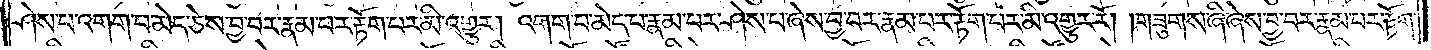ཤེས་པ་འགག་པ་མེད་ཅེས་བྱ་བར་རྣམ་པར་རྟོག་པར་མི་འགྱུར། འགག་པ་མེད་པ་རྣམ་པར་ཤེས་པ་ཞེས་བྱ་བར་རྣམ་པར་རྟོག་པར་མི་འགྱུར་རོ། །གཟུགས་ཞི་ཞེས་བྱ་བར་རྣམ་པར་རྟོག་
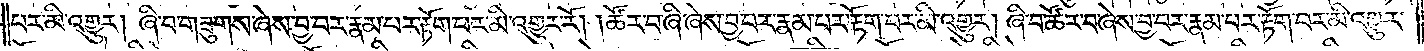པར་མི་འགྱུར། ཞི་བ་གཟུགས་ཞེས་བྱ་བར་རྣམ་པར་རྟོག་པར་མི་འགྱུར་རོ། །ཚོར་བ་ཞི་ཞེས་བྱ་བར་རྣམ་པར་རྟོག་པར་མི་འགྱུར། ཞི་བ་ཚོར་བ་ཞེས་བྱ་བར་རྣམ་པར་རྟོག་པར་མི་འགྱུར་
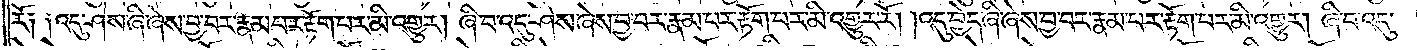རོ༏ ༏འདུ་ཤེས་ཞི་ཞེས་བྱ་བར་རྣམ་པར་རྟོག་པར་མི་འགྱུར། ཞི་བ་འདུ་ཤེས་ཞེས་བྱ་བར་རྣམ་པར་རྟོག་པར་མི་འགྱུར་རོ། །འདུ་བྱེད་ཞི་ཞེས་བྱ་བར་རྣམ་པར་རྟོག་པར་མི་འགྱུར། ཞི་བ་འདུ་
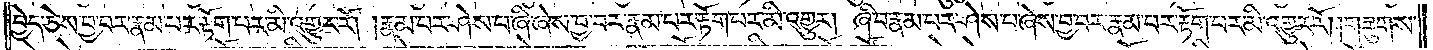བྱེད་ཅེས་བྱ་བར་རྣམ་པར་རྟོག་པར་མི་འགྱུར་རོ། །རྣམ་པར་ཤེས་པ་ཞི་ཞེས་བྱ་བར་རྣམ་པར་རྟོག་པར་མི་འགྱུར། ཞི་བ་རྣམ་པར་ཤེས་པ་ཞེས་བྱ་བར་རྣམ་པར་རྟོག་པར་མི་འགྱུར་རོ། །གཟུགས་
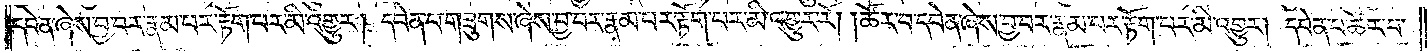དབེན་ཞེས་བྱ་བར་རྣམ་པར་རྟོག་པར་མི་འགྱུར། དབེན་པ་གཟུགས་ཞེས་བྱ་བར་རྣམ་པར་རྟོག་པར་མི་འགྱུར་རོ། །ཚོར་བ་དབེན་ཞེས་བྱ་བར་རྣམ་པར་རྟོག་པར་མི་འགྱུར། དབེན་པ་ཚོར་བ་
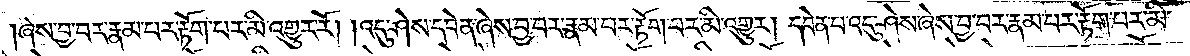ཞེས་བྱ་བར་རྣམ་པར་རྟོག་པར་མི་འགྱུར་རོ། །འདུ་ཤེས་དབེན་ཞེས་བྱ་བར་རྣམ་པར་རྟོག་པར་མི་འགྱུར། དབེན་པ་འདུ་ཤེས་ཞེས་བྱ་བར་རྣམ་པར་རྟོག་པར་མི་
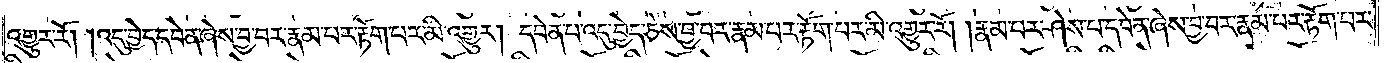འགྱུར་རོ། །འདུ་བྱེད་དབེན་ཞེས་བྱ་བར་རྣམ་པར་རྟོག་པར་མི་འགྱུར། དབེན་པ་འདུ་བྱེད་ཅེས་བྱ་བར་རྣམ་པར་རྟོག་པར་མི་འགྱུར་རོ། །རྣམ་པར་ཤེས་པ་དབེན་ཞེས་བྱ་བར་རྣམ་པར་རྟོག་པར་
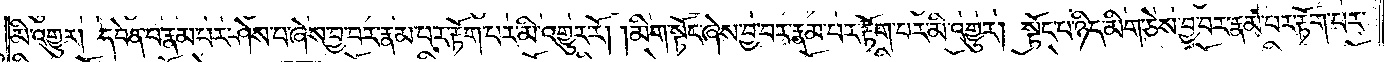མི་འགྱུར། དབེན་པ་རྣམ་པར་ཤེས་པ་ཞེས་བྱ་བར་རྣམ་པར་རྟོག་པར་མི་འགྱུར་རོ། །མིག་སྟོང་ཞེས་བྱ་བར་རྣམ་པར་རྟོག་པར་མི་འགྱུར། སྟོང་པ་ཉིད་མིག་ཅེས་བྱ་བར་རྣམ་པར་རྟོག་པར་
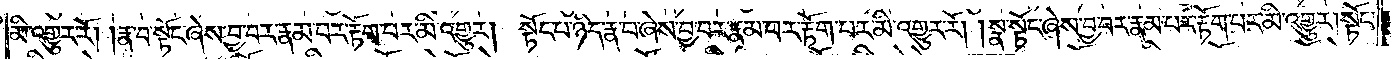མི་འགྱུར་རོ། །རྣ་བ་སྟོང་ཞེས་བྱ་བར་རྣམ་པར་རྟོག་པར་མི་འགྱུར། སྟོང་པ་ཉིད་རྣ་བ་ཞེས་བྱ་བར་རྣམ་པར་རྟོག་པར་མི་འགྱུར་རོ། །སྣ་སྟོང་ཞེས་བྱ་བར་རྣམ་པར་རྟོག་པར་མི་འགྱུར། སྟོང་
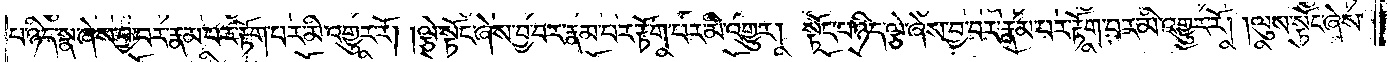པ་ཉིད་སྣ་ཞེས་བྱ་བར་རྣམ་པར་རྟོག་པར་མི་འགྱུར་རོ། །ལྕེ་སྟོང་ཞེས་བྱ་བར་རྣམ་པར་རྟོག་པར་མི་འགྱུར། སྟོང་པ་ཉིད་ལྕེ་ཞེས་བྱ་བར་རྣམ་པར་རྟོག་པར་མི་འགྱུར་རོ། །ལུས་སྟོང་ཞེས་
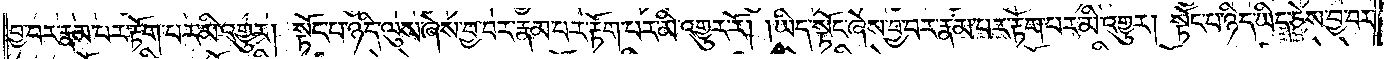བྱ་བར་རྣམ་པར་རྟོག་པར་མི་འགྱུར། སྟོང་པ་ཉིད་ལུས་ཞེས་བྱ་བར་རྣམ་པར་རྟོག་པར་མི་འགྱུར་རོ། །ཡིད་སྟོང་ཞེས་བྱ་བར་རྣམ་པར་རྟོག་པར་མི་འགྱུར། སྟོང་པ་ཉིད་ཡིད་ཅེས་བྱ་བར་
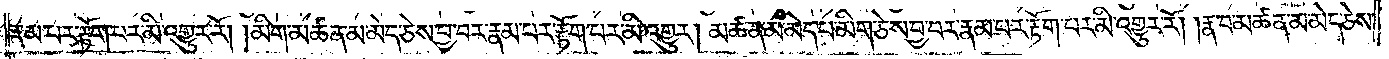རྣམ་པར་རྟོག་པར་མི་འགྱུར་རོ། །མིག་མཚན་མ་མེད་ཅེས་བྱ་བར་རྣམ་པར་རྟོག་པར་མི་འགྱུར། མཚན་མ་མེད་པ་མིག་ཅེས་བྱ་བར་རྣམ་པར་རྟོག་པར་མི་འགྱུར་རོ། །རྣ་བ་མཚན་མ་མེད་ཅེས་
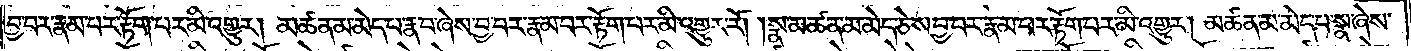བྱ་བར་རྣམ་པར་རྟོག་པར་མི་འགྱུར། མཚན་མ་མེད་པ་རྣ་བ་ཞེས་བྱ་བར་རྣམ་པར་རྟོག་པར་མི་འགྱུར་རོ། །སྣ་མཚན་མ་མེད་ཅེས་བྱ་བར་རྣམ་པར་རྟོག་པར་མི་འགྱུར། མཚན་མ་མེད་པ་སྣ་ཞེས་
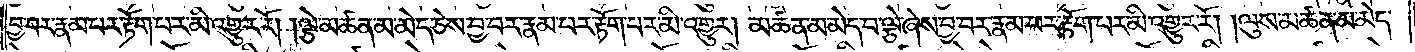བྱ་བར་རྣམ་པར་རྟོག་པར་མི་འགྱུར་རོ། །ལྕེ་མཚན་མ་མེད་ཅེས་བྱ་བར་རྣམ་པར་རྟོག་པར་མི་འགྱུར། མཚན་མ་མེད་པ་ལྕེ་ཞེས་བྱ་བར་རྣམ་པར་རྟོག་པར་མི་འགྱུར་རོ། །ལུས་མཚན་མ་མེད་
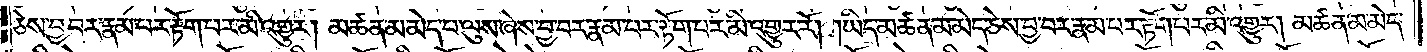ཅེས་བྱ་བར་རྣམ་པར་རྟོག་པར་མི་འགྱུར། མཚན་མ་མེད་པ་ལུས་ཞེས་བྱ་བར་རྣམ་པར་རྟོག་པར་མི་འགྱུར་རོ། །ཡིད་མཚན་མ་མེད་ཅེས་བྱ་བར་རྣམ་པར་རྟོག་པར་མི་འགྱུར། མཚན་མ་མེད་
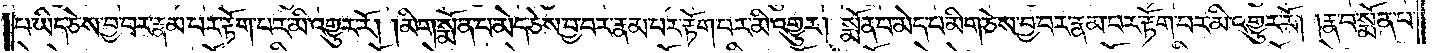པ་ཡིད་ཅེས་བྱ་བར་རྣམ་པར་རྟོག་པར་མི་འགྱུར་རོ། །མིག་སྨོན་པ་མེད་ཅེས་བྱ་བར་རྣམ་པར་རྟོག་པར་མི་འགྱུར། སྨོན་པ་མེད་པ་མིག་ཅེས་བྱ་བར་རྣམ་པར་རྟོག་པར་མི་འགྱུར་རོ། །རྣ་བ་སྨོན་པ་
